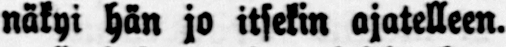näkyi hän jo itsekin ajatelleen.
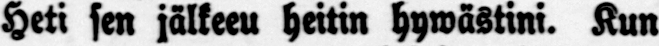Heti sen jälkeeu heitin hywästini. Kun
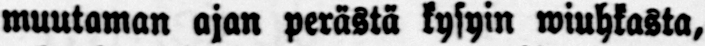muutaman ajan perästä kysyin wiuhkasta,
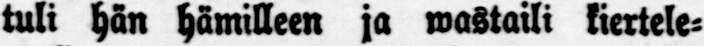tuli hän hämilleen ja wastaili kiertele-
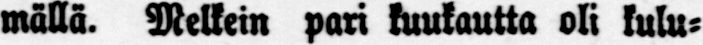mällä. Melkein pari kuukautta oli kulu-
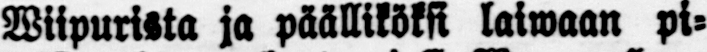Wiipurista ja päälliököksi laiwaan pi-
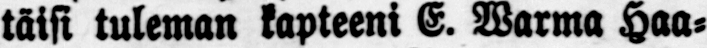täisi tuleman kapteeni E. Warma Haa-
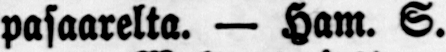pasaarelta. — Ham. S.
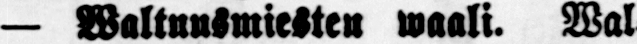— Waltuusmiesten waali. Wal-
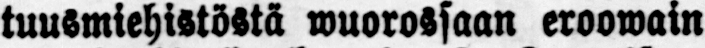tuusmiehistöstä wuorossaan eroowain
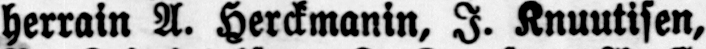herrain A. Herckmanin, I. Knuutisen,
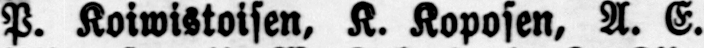P. Koiwistoisen, K. Koposen, A. E.
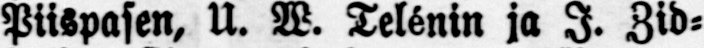Piispasen, U. W. Telénin ja I. Zid-
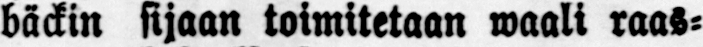bäckin sijaan toimitetaan waali raas-
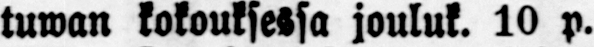tuwan kokouksessa jouluk. 10 p.
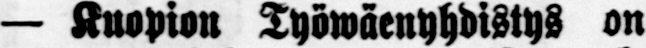— Kuopion Työwäenyhdistys on
